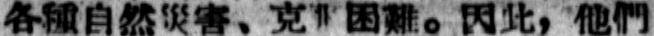各種自然災害、克服困難。因此，他們
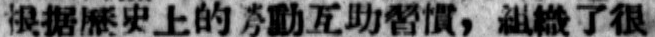根據歷史上的勞動互助習慣，組織了很
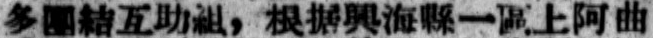多團結互助組，根據興海縣一區上阿曲
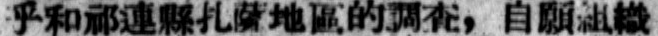乎和祁連縣扎薩地區的調查，自願組織
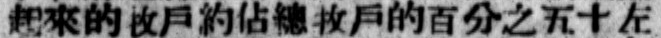起來的牧戶約佔總牧戶的百分之五十左
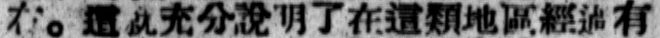右。這就充分說明了在這類地區經濟有
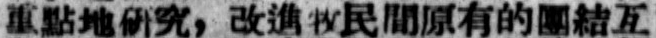重點地研究，改進牧民間原有的團結互
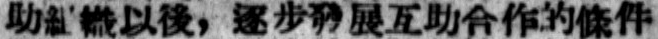助組織以後，逐步發展互助合作的條件
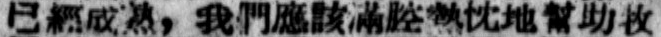已經成熟，我們應該滿腔熱忱地幫助牧
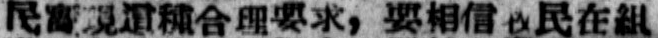民實現這種合理要求，要相信牧民在組
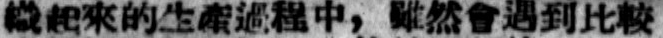織起來的生產過程中，雖然會遇到比較
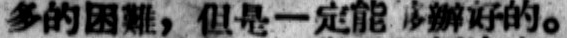多的困難，但是一定能夠辦好的。
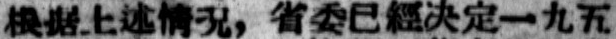根據上述情況，省委已經決定一九五
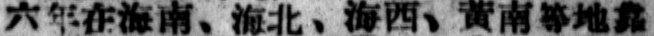六年在海南、海北、海西、黃南等地靠
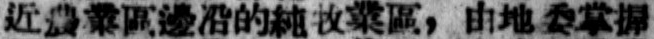近農業區邊沿的純牧業區，由地委掌握
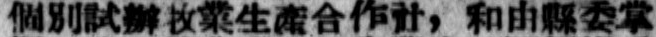個別試辦牧業生產合作社，和由縣委掌
